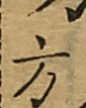方
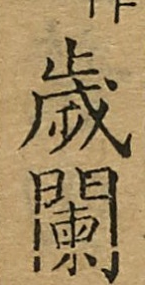歲闌
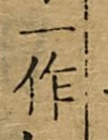一作
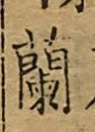蘭
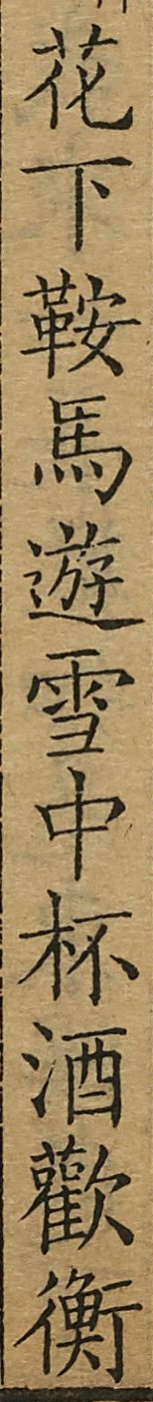花下鞍馬遊雪中杯酒歡衡
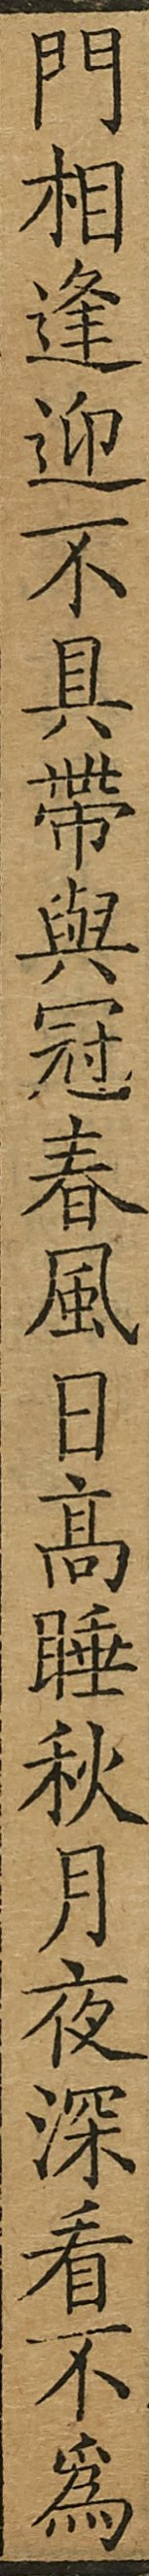門相逢迎不具帶與冠春風日高睡秋月夜深看不為
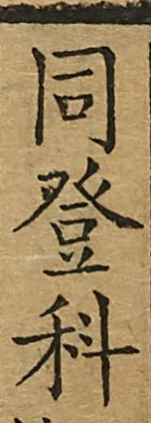同登科
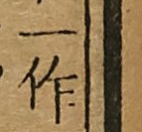一作
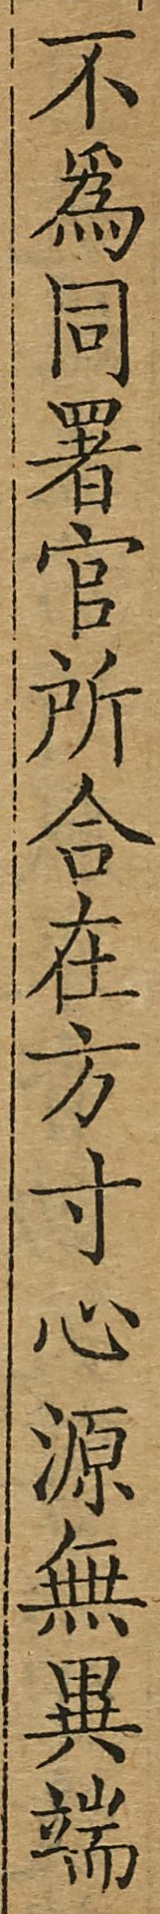不為同署官所合在方寸心源無異端
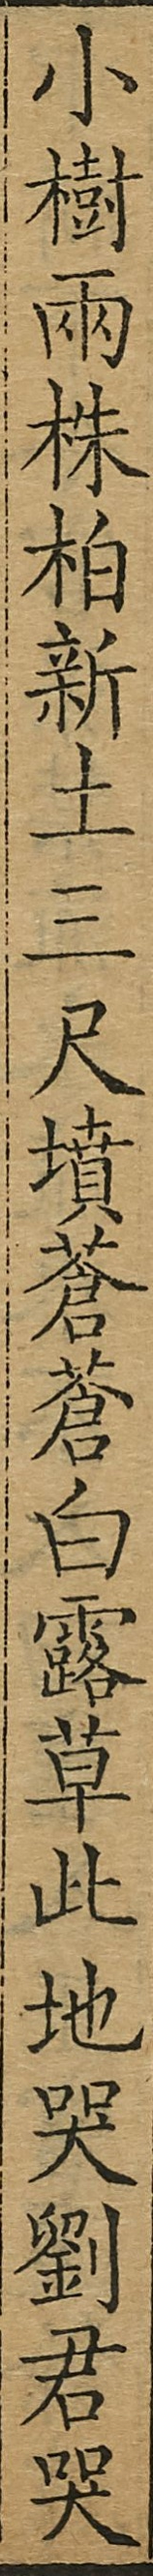小樹兩株柏新土三尺墳蒼蒼白露草此地哭劉君哭
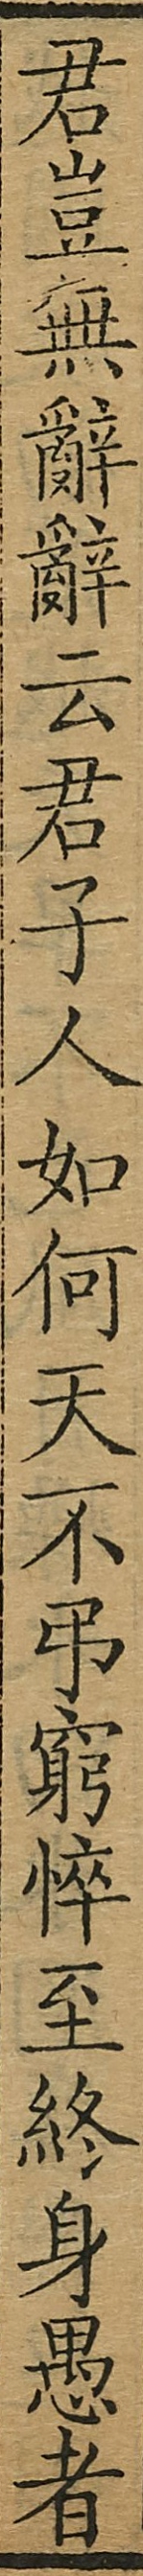君豈無辭辭云君子人如何天不弔窮悴至終身愚者
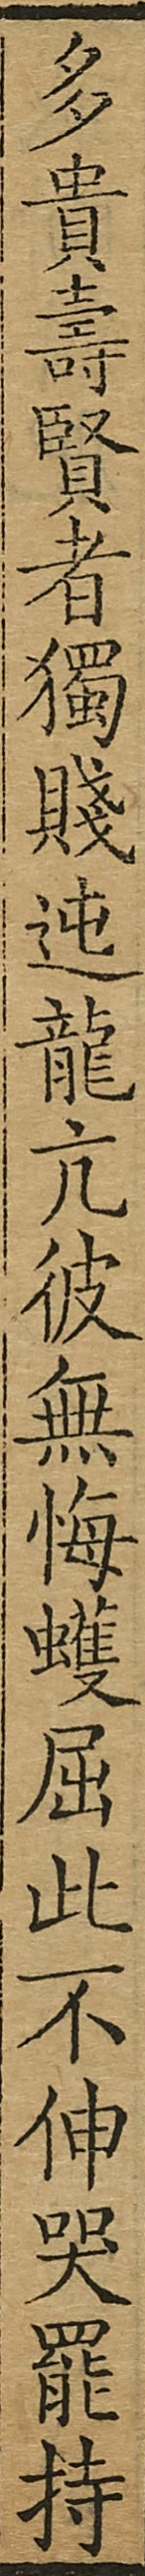多貴壽賢者獨賤迍龍亢彼無悔蠖屈此不伸哭罷持
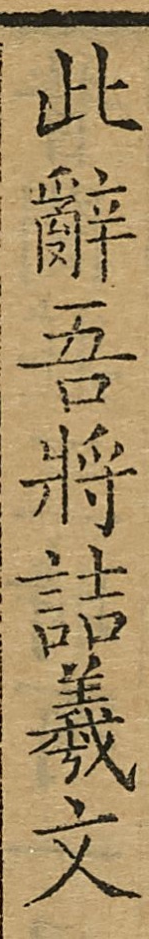此辭吾將詰羲文
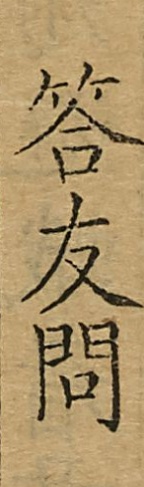答友問
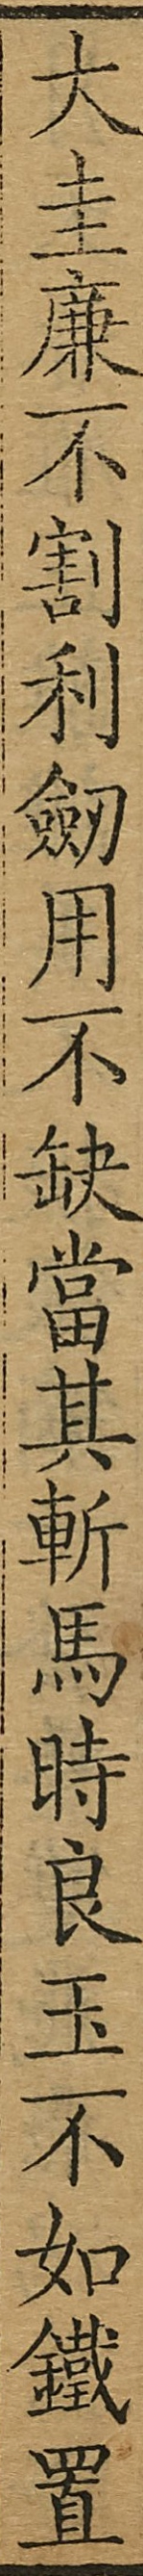大圭廉不割利劍用不缺當其斬馬時良玉不如鐵置
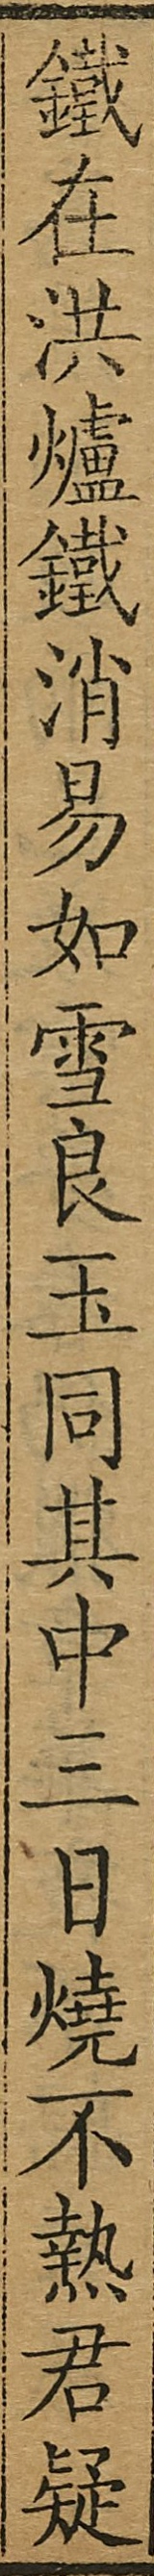鐵在洪爐鐵消易如雪良玉同其中三日燒不熱君疑
